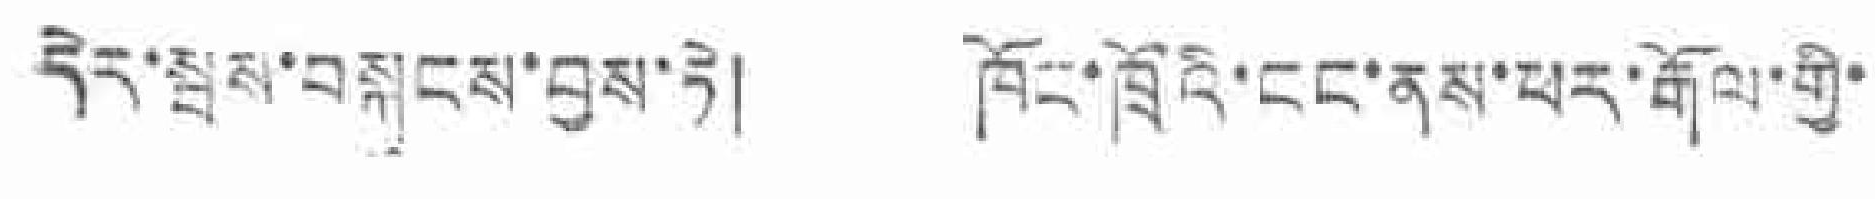དིར་སྦས་བསྐུངས་བྱས་ཏེ། ཁོང་ཁྲོའི་ངང་ནས་ཕར་རྒོལ་གྱི་
